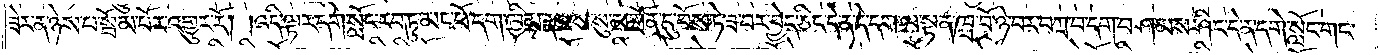ཟེར་ན་ཉེས་པ་སྦོམ་པོར་འགྱུར་རོ། །འདི་ལྟར་དགེ་སློང་རབ་ཏུ་མང་པོ་དག་ཁྱིམ་རྣམས་སུ་མགྲོན་དུ་བོས་ཏེ་ཟ་བར་བྱེད་ཅིང་དེ་ན་དེ་དག་ལ་སྟན་ཁྲ་བོ་ཉེ་བར་བཀྲ་བ་དག་བཤམས་ཤིང་དེ་ན་དགེ་སློང་གང་
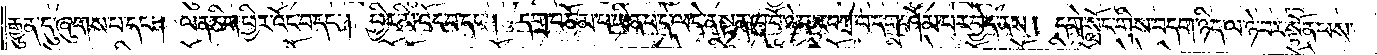རྒྱུན་དུ་ཞུགས་པ་དང༌། ལན་ཅིག་ཕྱིར་འོང་བ་དང༌། ཕྱིར་མི་འོང་བ་དང༌། དགྲ་བཅོམ་པ་ཡིན་པ་དེ་ལ་དེ་ན་སྟན་ཁྲ་བོ་ཉེ་བར་བཀྲ་བ་དག་ཤོམ་པར་བྱེད་ནས། དགེ་སློང་གིས་བདག་ཉིད་ལ་ཉེ་བར་སྟོན་པས་
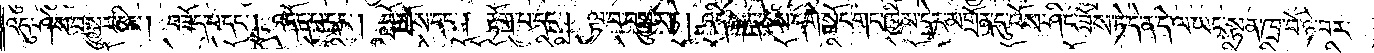འདུ་ཤེས་བསྒྱུར་ཅིང༌། བཟོད་པ་དང༌། འདོད་པ་དང༌། བློ་གྲོས་དང༌། རྟོག་པ་དང༌། ལྟ་བ་བསྒྱུར་ཏེ། འདི་སྐད་ཅེས་དགེ་སློང་གང་ཁྱིམ་དེར་མགྲོན་དུ་བོས་ཤིང་ཟོས་ཏེ་དེ་ན་དེ་ལ་ཡང་སྟན་ཁྲ་བོ་ཉེ་བར་
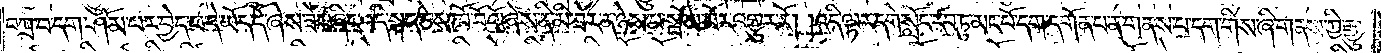བཀྲ་བ་དག་ཤོམ་པར་བྱེད་པ་དེ་ཡོད་དོ་ཞེས་ཟེར་ཞིང་འདི་སྐད་ཅེས་ཁོ་བོའོ་ཞེས་ནི་མི་ཟེར་ན་ཉེས་པ་སྦོམ་པོར་འགྱུར་རོ། །འདི་ལྟར་དགེ་སློང་རབ་ཏུ་མང་པོ་དག་དགོན་པ་ན་གནས་པ་དག་གིས་ཞི་གནས་ཀྱི་རྒྱུ་
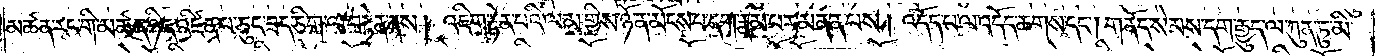མཚན་རང་གི་མཚན་ཉིད་འཛིན་པ་ཅུང་ཟད་ཅིག་ལ་བརྟེན་ནས། འཇིག་རྟེན་པའི་ལམ་གྱིས་ཉོན་མོངས་པ་དག་རྣམས་པར་མནན་པས། འདོད་པ་ལ་འདོད་ཆགས་དང༌། གནོད་སེམས་དག་རྒྱུད་ལ་ཀུན་ཏུ་མི་
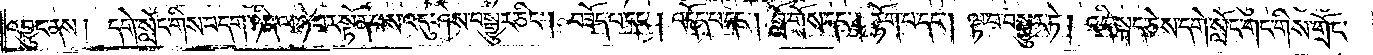འབྱུང་ནས། དགེ་སློང་གིས་བདག་ཉིད་ལ་ཉེ་བར་སྟོན་པས་འདུ་ཤེས་བསྒྱུར་ཅིང༌། བཟོད་པ་དང༌། འདོད་པ་དང༌། བློ་གྲོས་དང༌། རྟོག་པ་དང༌། ལྟ་བ་བསྒྱུར་ཏེ། འདི་སྐད་ཅེས་དགེ་སློང་གང་གིས་གྲོང་
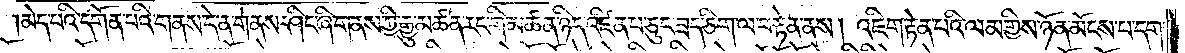མེད་པའི་དགོན་པའི་གནས་དེ་ན་གནས་ཤིང་ཞི་གནས་ཀྱི་རྒྱུ་མཚན་རང་གི་མཚན་ཉིད་འཛིན་པ་ཅུང་ཟད་ཅིག་ལ་བརྟེན་ནས། འཇིག་རྟེན་པའི་ལམ་གྱིས་ཉོན་མོངས་པ་དག་
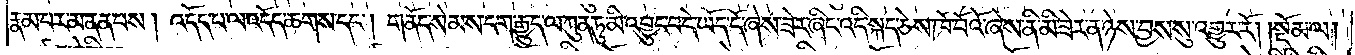རྣམ་པར་མནན་པས། འདོད་པ་ལ་འདོད་ཆགས་དང༌། གནོད་སེམས་དག་རྒྱུད་ལ་ཀུན་ཏུ་མི་འབྱུང་བ་དེ་ཡོད་དོ་ཞེས་ཟེར་ཞིང་འདི་སྐད་ཅེས་ཁོ་བོའོ་ཞེས་ནི་མི་ཟེར་ན་ཉེས་བྱས་སུ་འགྱུར་རོ། །སྡོམ་ལ་
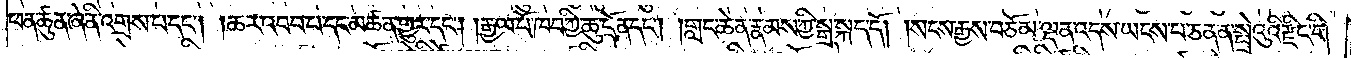ཕན་ཚུན་ཞེ་ནི་འགྲས་པ་དང༌། །ཆར་འབབ་པ་དང་མཚན་གྱུར་དང༌། །རྒྱལ་པོ་ཁབ་ཀྱི་ཆུ་དྲོན་དང༌། །གླང་ཆེན་རྣམས་ཀྱི་སྒྲ་སྐད་དོ། །སངས་རྒྱས་བཅོམ་ལྡན་འདས་ཡངས་པ་ཅན་ན་སྤྲེའུའི་རྫིང་གི་
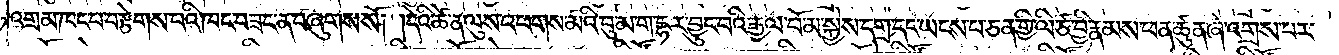འགྲམ་ཁང་པ་བརྩེགས་པའི་ཁང་བཟང་ན་བཞུགས་སོ། །དེའི་ཚེ་ན་ལུས་འཕགས་མའི་བུ་མ་ག་དྷར་བྱུང་བའི་རྒྱལ་པོ་མ་སྐྱེས་དགྲ་དང་ཡངས་པ་ཅན་གྱི་ལི་ཙ་བྱི་རྣམས་ཕན་ཚུན་ཞེ་འགྲས་པར་
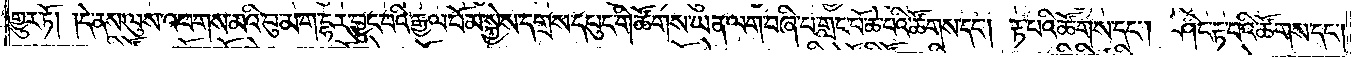གྱུར་ཏོ། །དེ་ནས་ལུས་འཕགས་མའི་བུ་མ་ག་དྷར་བྱུང་བའི་རྒྱལ་པོ་མ་སྐྱེས་དགྲས་དཔུང་གི་ཚོགས་ཡན་ལག་བཞི་པ་གླང་པོ་ཆེ་པའི་ཚོགས་དང༌། རྟ་པའི་ཚོགས་དང༌། ཤིང་རྟ་བའི་ཚོགས་དང་
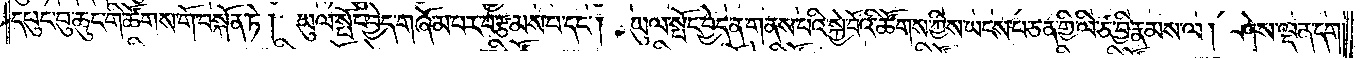དཔུང་བུ་ཆུང་གི་ཚོགས་གོ་བསྐོན་ཏེ། ཡུལ་སྤོང་བྱེད་གཞོམ་པར་བརྩམས་པ་དང༌། ཡུལ་སྤོང་བྱེད་ན་གནས་པའི་སྐྱེ་བོའི་ཚོགས་ཀྱིས་ཡངས་པ་ཅན་གྱི་ལི་ཙ་བྱི་རྣམས་ལ། ཤེས་ལྡན་དག་
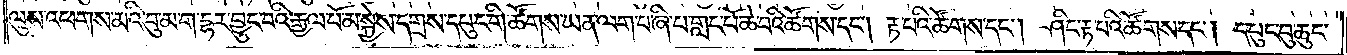ལུས་འཕགས་མའི་བུ་མ་ག་དྷར་བྱུང་བའི་རྒྱལ་པོ་མ་སྐྱེས་དགྲས་དཔུང་གི་ཚོགས་ཡན་ལག་པ་ཞི་པ་གླང་པོ་ཆེ་བའི་ཚོགས་དང༌། རྟ་པའི་ཚོགས་དང༌། ཤིང་རྟ་པའི་ཚོགས་དང༌། དཔུང་བུ་ཆུང་
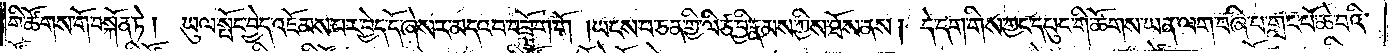གི་ཚོགས་གོ་བསྐོན་ཏེ།  ཡུལ་སྤོང་བྱེད་འཇོམས་པར་བྱེད་དོ་ཞེས་ར་མདའ་བ་བཟློག་གོ །ཡངས་པ་ཅན་གྱི་ལི་ཙ་བྱི་རྣམས་ཀྱིས་ཐོས་ནས། དེ་དག་གིས་ཀྱང་དཔུང་གི་ཚོགས་ཡན་ལག་བཞི་པ་གླང་པོ་ཆེ་བའི་
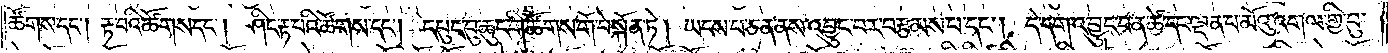ཚོགས་དང༌། རྟ་པའི་ཚོགས་དང༌། ཤིང་རྟ་པའི་ཚོགས་དང༌། དཔུང་བུ་ཆུང་གི་ཚོགས་གོ་བསྐོན་ཏེ། ཡངས་པ་ཅན་ནས་འབྱུང་བར་བརྩམས་པ་དང༌། དེ་དག་འབྱུང་བ་ན་ཚེ་དང་ལྡན་པ་མོའུ་འགལ་གྱི་བུ་
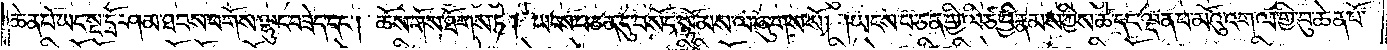ཆེན་པོ་ཡང་སྔ་དྲོ་ཤམ་ཐབས་བགོས་ལྷུང་བཟེད་དང༌། ཆོས་གོས་ཐོགས་ཏེ། ཡངས་པ་ཅན་དུ་བསོད་སྙོམས་ལ་ཞུགས་སོ། །ཡངས་པ་ཅན་གྱི་ལི་ཙ་བྱི་རྣམས་ཀྱིས་ཚེ་དང་ལྡན་པ་མོའུ་འགལ་གྱི་བུ་ཆེན་པོ་
